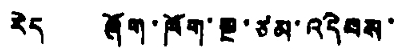རེད ཞོག་ཁོག་སྔ་ཙམ་འདེབས་
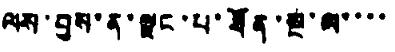ལས་བྱས་ན་ལྗང་པ་ཐོན་སྔ་ལ་་་་
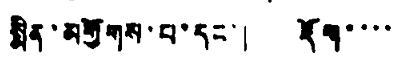སྨིན་མགྱོགས་པ་དང་། རྡོག་་་་
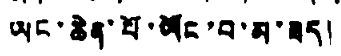ཡང་ཆེན་པོ་ཡོང་བ་མ་ཟད།
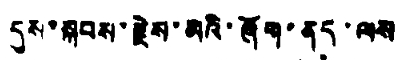དུས་སྐབས་རྗེས་མའི་ཞོག་ནད་ལས
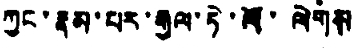ཀྱང་རྣམ་པར་རྒྱལ་ཏེ་ལོ་ལེགས
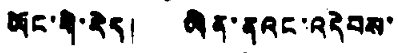ཡོང་གི་རེད། ཡིན་ནའང་འདེབས་
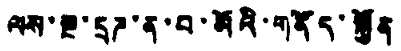ལས་སྔ་དྲཌ་ན་བ་མོའི་གནོད་སྐྱོན
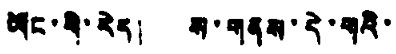ཡོང་གི་རེད། ས་གནས་དེ་གའི་
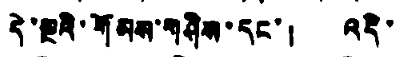དེ་སྔའི་གོམས་གཤིས་དང་། འདི་
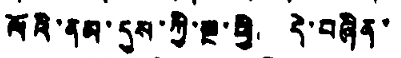ལོའི་ནམ་དུས་ཀྱི་སྔ་ཕྱི། དེ་བཞིན་
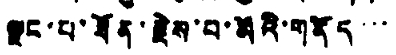ལྗང་པ་ཐོན་རྗེས་བ་མོའི་གནོད་་་
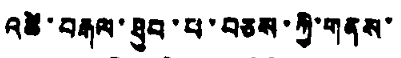འཚེ་བརྒལ་ཐུབ་པ་བཅས་ཀྱི་གནས་
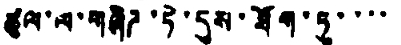ཚུལ་ལ་གཞིཌ་ཏེ་དུས་ཐོག་ཏུ་་་་
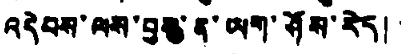འདེབས་ལས་བྱས་ན་ཡག་ཤོས་རེད།
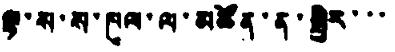ལྷ་ས་ས་ཁུལ་ལ་མཚོན་ན་སྤྱིར་་་
